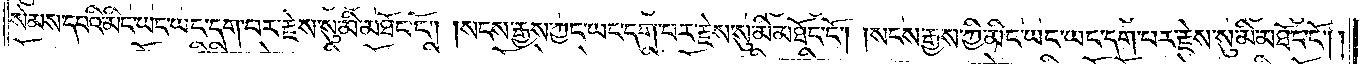སེམས་དཔའི་མིང་ཡང་ཡང་དག་པར་རྗེས་སུ་མི་མཐོང་ངོ༌། །སངས་རྒྱས་ཀྱང་ཡང་དག་པར་རྗེས་སུ་མི་མཐོང་ངོ༌། །སངས་རྒྱས་ཀྱི་མིང་ཡང་ཡང་དག་པར་རྗེས་སུ་མི་མཐོང་ངོ༌། །
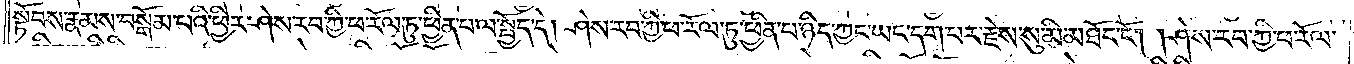སྟོབས་རྣམས་བསྒོམ་པའི་ཕྱིར་ཤེས་རབ་ཀྱི་ཕ་རོལ་ཏུ་ཕྱིན་པ་ལ་སྤྱོད་དེ། ཤེས་རབ་ཀྱི་ཕ་རོལ་ཏུ་ཕྱིན་པ་ཉིད་ཀྱང་ཡང་དག་པར་རྗེས་སུ་མི་མཐོང་ངོ༌། །ཤེས་རབ་ཀྱི་ཕ་རོལ་
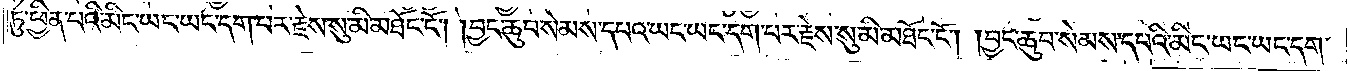ཏུ་ཕྱིན་པའི་མིང་ཡང་ཡང་དག་པར་རྗེས་སུ་མི་མཐོང་ངོ༌། །བྱང་ཆུབ་སེམས་དཔའ་ཡང་ཡང་དག་པར་རྗེས་སུ་མི་མཐོང་ངོ༌། །བྱང་ཆུབ་སེམས་དཔའི་མིང་ཡང་ཡང་དག་
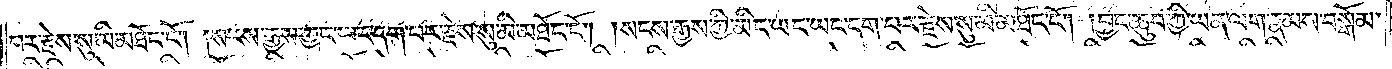པར་རྗེས་སུ་མི་མཐོང་ངོ༌། །སངས་རྒྱས་ཀྱང་ཡང་དག་པར་རྗེས་སུ་མི་མཐོང་ངོ༌། །སངས་རྒྱས་ཀྱི་མིང་ཡང་ཡང་དག་པར་རྗེས་སུ་མི་མཐོང་ངོ༌། །བྱང་ཆུབ་ཀྱི་ཡན་ལག་རྣམས་བསྒོམ་
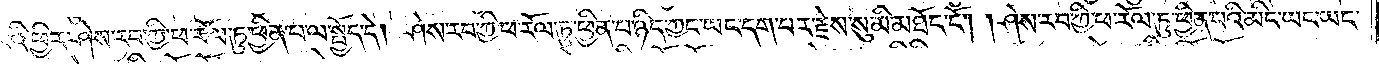པའི་ཕྱིར་ཤེས་རབ་ཀྱི་ཕ་རོལ་ཏུ་ཕྱིན་པ་ལ་སྤྱོད་དེ། ཤེས་རབ་ཀྱི་ཕ་རོལ་ཏུ་ཕྱིན་པ་ཉིད་ཀྱང་ཡང་དག་པར་རྗེས་སུ་མི་མཐོང་ངོ༌། །ཤེས་རབ་ཀྱི་ཕ་རོལ་ཏུ་ཕྱིན་པའི་མིང་ཡང་ཡང་
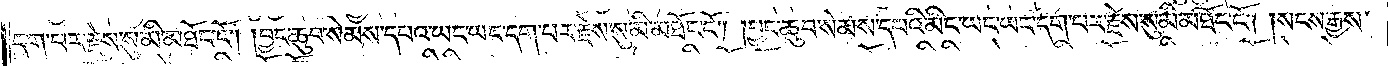དག་པར་རྗེས་སུ་མི་མཐོང་ངོ༌། །བྱང་ཆུབ་སེམས་དཔའ་ཡང་ཡང་དག་པར་རྗེས་སུ་མི་མཐོང་ངོ༌། །བྱང་ཆུབ་སེམས་དཔའི་མིང་ཡང་ཡང་དག་པར་རྗེས་སུ་མི་མཐོང་ངོ༌། །སངས་རྒྱས་
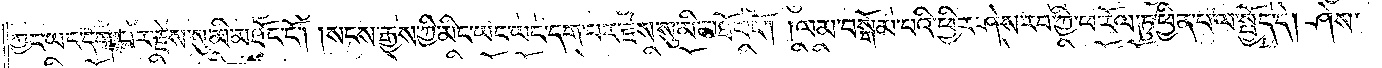ཀྱང་ཡང་དག་པར་རྗེས་སུ་མི་མཐོང་ངོ༌། །སངས་རྒྱས་ཀྱི་མིང་ཡང་ཡང་དག་པར་རྗེས་སུ་མི་མཐོང་ངོ༌། །ལམ་བསྒོམ་པའི་ཕྱིར་ཤེས་རབ་ཀྱི་ཕ་རོལ་ཏུ་ཕྱིན་པ་ལ་སྤྱོད་དེ། ཤེས་
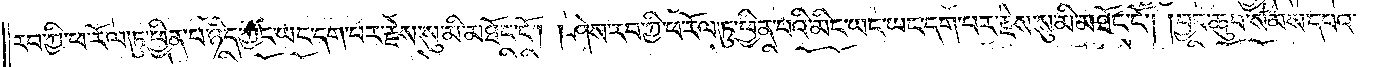རབ་ཀྱི་ཕ་རོལ་ཏུ་ཕྱིན་པ་ཉིད་ཀྱང་ཡང་དག་པར་རྗེས་སུ་མི་མཐོང་ངོ༌། །ཤེས་རབ་ཀྱི་ཕ་རོལ་ཏུ་ཕྱིན་པའི་མིང་ཡང་ཡང་དག་པར་རྗེས་སུ་མི་མཐོང་ངོ༌། །བྱང་ཆུབ་སེམས་དཔའ་
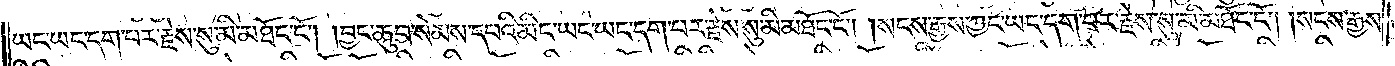ཡང་ཡང་དག་པར་རྗེས་སུ་མི་མཐོང་ངོ༌། །བྱང་ཆུབ་སེམས་དཔའི་མིང་ཡང་ཡང་དག་པར་རྗེས་སུ་མི་མཐོང་ངོ༌། །སངས་རྒྱས་ཀྱང་ཡང་དག་པར་རྗེས་སུ་མི་མཐོང་ངོ༌། །སངས་རྒྱས་
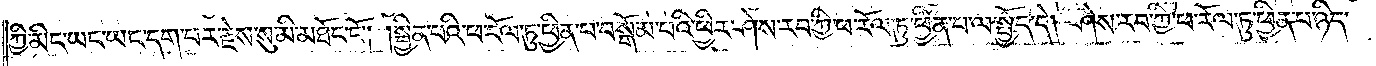ཀྱི་མིང་ཡང་ཡང་དག་པར་རྗེས་སུ་མི་མཐོང་ངོ༌། །སྦྱིན་པའི་ཕ་རོལ་ཏུ་ཕྱིན་པ་བསྒོམ་པའི་ཕྱིར་ཤེས་རབ་ཀྱི་ཕ་རོལ་ཏུ་ཕྱིན་པ་ལ་སྤྱོད་དེ། ཤེས་རབ་ཀྱི་ཕ་རོལ་ཏུ་ཕྱིན་པ་ཉིད་
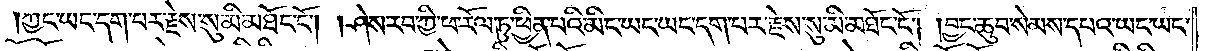ཀྱང་ཡང་དག་པར་རྗེས་སུ་མི་མཐོང་ངོ༌། །ཤེས་རབ་ཀྱི་ཕ་རོལ་ཏུ་ཕྱིན་པའི་མིང་ཡང་ཡང་དག་པར་རྗེས་སུ་མི་མཐོང་ངོ༌། །བྱང་ཆུབ་སེམས་དཔའ་ཡང་ཡང་
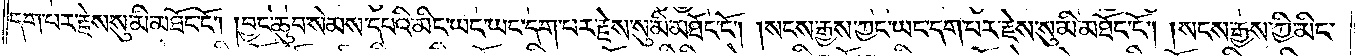དག་པར་རྗེས་སུ་མི་མཐོང་ངོ༌། །བྱང་ཆུབ་སེམས་དཔའི་མིང་ཡང་ཡང་དག་པར་རྗེས་སུ་མི་མཐོང་ངོ༌། །སངས་རྒྱས་ཀྱང་ཡང་དག་པར་རྗེས་སུ་མི་མཐོང་ངོ༌། །སངས་རྒྱས་ཀྱི་མིང་
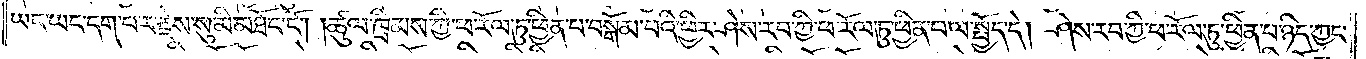ཡང་ཡང་དག་པར་རྗེས་སུ་མི་མཐོང་ངོ༌། །ཚུལ་ཁྲིམས་ཀྱི་ཕ་རོལ་ཏུ་ཕྱིན་པ་བསྒོམ་པའི་ཕྱིར་ཤེས་རབ་ཀྱི་ཕ་རོལ་ཏུ་ཕྱིན་པ་ལ་སྤྱོད་དེ། ཤེས་རབ་ཀྱི་ཕ་རོལ་ཏུ་ཕྱིན་པ་ཉིད་ཀྱང་
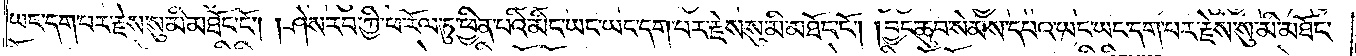ཡང་དག་པར་རྗེས་སུ་མི་མཐོང་ངོ༌། །ཤེས་རབ་ཀྱི་ཕ་རོལ་ཏུ་ཕྱིན་པའི་མིང་ཡང་ཡང་དག་པར་རྗེས་སུ་མི་མཐོང་ངོ༌། །བྱང་ཆུབ་སེམས་དཔའ་ཡང་ཡང་དག་པར་རྗེས་སུ་མི་མཐོང་
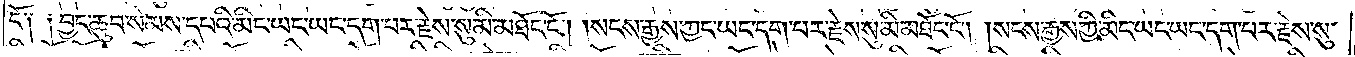ངོ༑ ༑བྱང་ཆུབ་སེམས་དཔའི་མིང་ཡང་ཡང་དག་པར་རྗེས་སུ་མི་མཐོང་ངོ༌། །སངས་རྒྱས་ཀྱང་ཡང་དག་པར་རྗེས་སུ་མི་མཐོང་ངོ༌། །སངས་རྒྱས་ཀྱི་མིང་ཡང་ཡང་དག་པར་རྗེས་སུ་
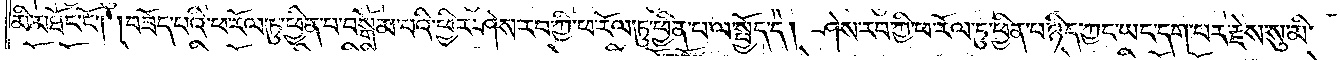མི་མཐོང་ངོ༌། །བཟོད་པའི་ཕ་རོལ་ཏུ་ཕྱིན་པ་བསྒོམ་པའི་ཕྱིར་ཤེས་རབ་ཀྱི་ཕ་རོལ་ཏུ་ཕྱིན་པ་ལ་སྤྱོད་དེ། ཤེས་རབ་ཀྱི་ཕ་རོལ་ཏུ་ཕྱིན་པ་ཉིད་ཀྱང་ཡང་དག་པར་རྗེས་སུ་མི་
